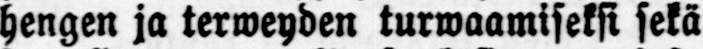hengen ja terveyden turwaamiseksi sekä
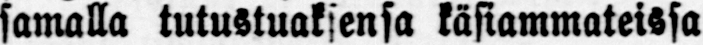samalla tutustuaksensa käsiammateissa
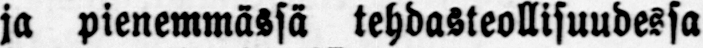ja pienemmässä tehdasteollisuudessa
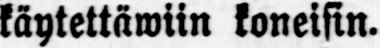käytettäwiin koneisin.
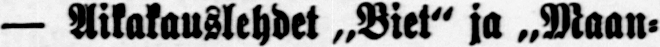— Aikakauslehdet „Biet" ja „Maan-
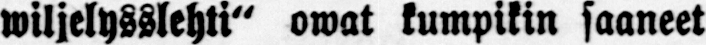wiljelysslehti" owat kumpikin saaneet
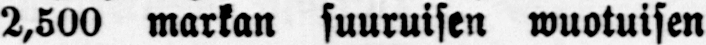2,500 markan suuruisen wuotuisen
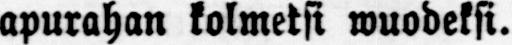apurahan kolmeksi wuodeksi.
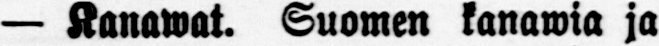— Kanawat. Suomen kanawia ja
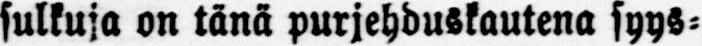sulkuja on tänä purjehduskautena syys-
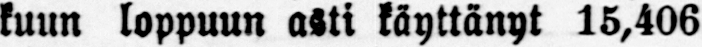kuun loppuun asti käyttänyt 15,406
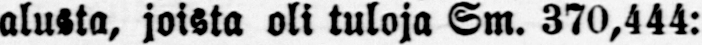alusta, joista oli tuloja Sm. 370,444:
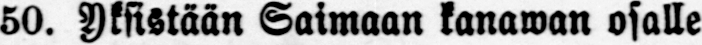50. Yksistään Saimaan kanawan osalle
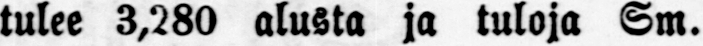tulee 3,280 alusta ja tuloja Sm.
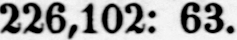226,102: 63.
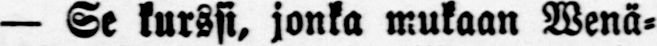— Se kurssi, jonka mukaan Wenä-
